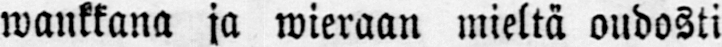wankkana ja wieraan mieltä oudosti
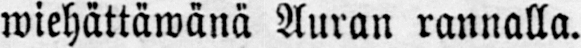wiehättäwänä Auran rannalla.
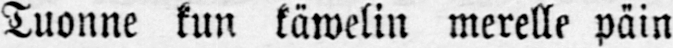Tuonne kun käwelin merelle päin
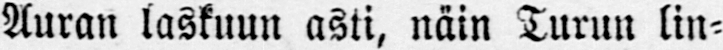Auran laskuun asti, näin Turun lin-
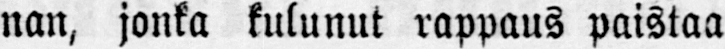nan, jonka kulunut rappaus paistaa
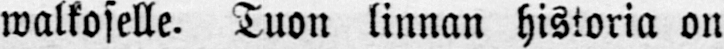walkoselle. Tuon linnan historia on
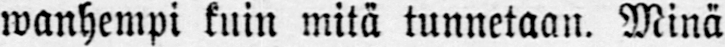wanhempi kuin mitä tunnetaan. Minä
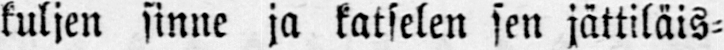kuljen sinne ja katselen sen jättiläis-
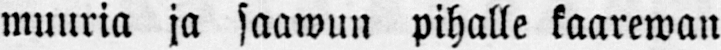muuria ja saawun pihalle kaarewan
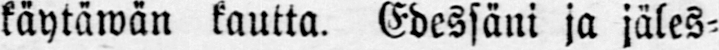käytäwän kautta. Edessäni ja jäles-
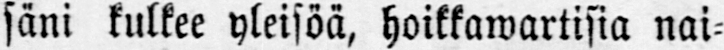säni kulkee yleisöä, hoikkawartisia nai-
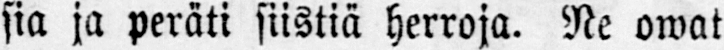sia ja peräti siistiä herroja. Ne owat
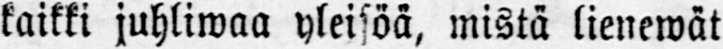kaikki juhliwaa yleisöä, mistä lienewät
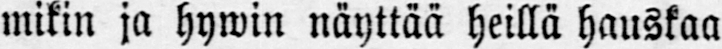mikin ja hywin näyttää heillä hauskaa
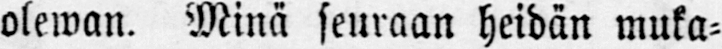olewan. Minä seuraan heidän muka-
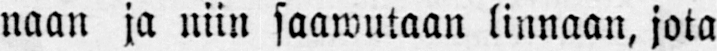naan ja niin saamiltaan linnaan, jota
